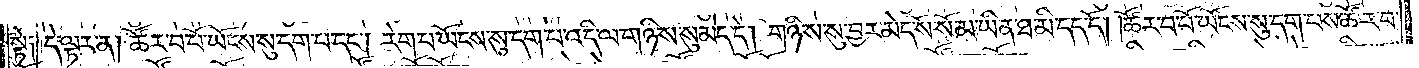སྟེ༑ དེ་ལྟར་ན། ཚོར་བ་པོ་ཡོངས་སུ་དག་པ་དང༌། རེག་པ་ཡོངས་སུ་དག་པ་འདི་ལ་གཉིས་སུ་མེད་དེ། གཉིས་སུ་བྱར་མེད་སོ་སོ་མ་ཡིན་ཐ་མི་དད་དོ། །ཚོར་བ་པོ་ཡོངས་སུ་དག་པས་ཚོར་བ་
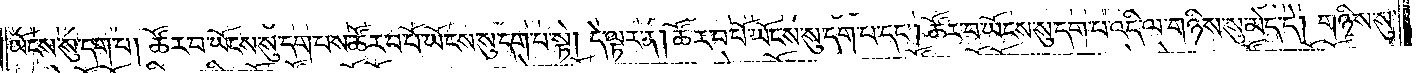ཡོངས་སུ་དག་པ། ཚོར་བ་ཡོངས་སུ་དག་པས་ཚོར་བ་པོ་ཡོངས་སུ་དག་པ་སྟེ། དེ་ལྟར་ན། ཚོར་བ་པོ་ཡོངས་སུ་དག་པ་དང༌། ཚོར་བ་ཡོངས་སུ་དག་པ་འདི་ལ་གཉིས་སུ་མེད་དེ། གཉིས་སུ་
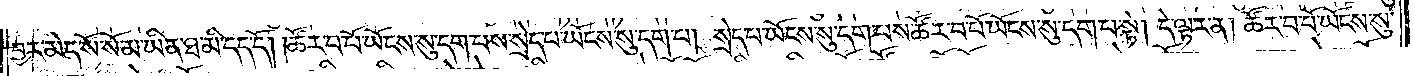བྱར་མེད་སོ་སོ་མ་ཡིན་ཐ་མི་དད་དོ། །ཚོར་བ་པོ་ཡོངས་སུ་དག་པས་སྲེད་པ་ཡོངས་སུ་དག་པ། སྲེད་པ་ཡོངས་སུ་དག་པས་ཚོར་བ་པོ་ཡོངས་སུ་དག་པ་སྟེ། དེ་ལྟར་ན། ཚོར་བ་པོ་ཡོངས་སུ་
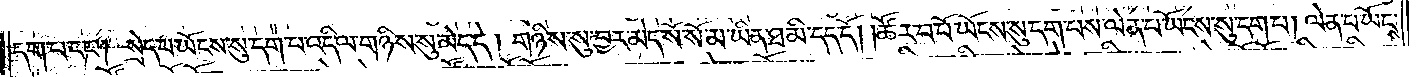དག་པ་དང༌། སྲེད་པ་ཡོངས་སུ་དག་པ་འདི་ལ་གཉིས་སུ་མེད་དེ། གཉིས་སུ་བྱར་མེད་སོ་སོ་མ་ཡིན་ཐ་མི་དད་དོ། །ཚོར་བ་པོ་ཡོངས་སུ་དག་པས་ལེན་པ་ཡོངས་སུ་དག་པ། ལེན་པ་ཡོངས་
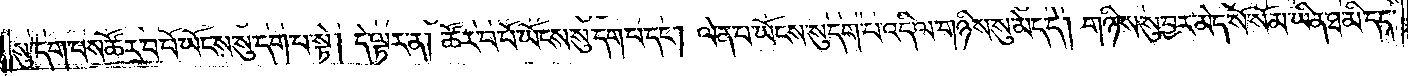སུ་དག་པས་ཚོར་བ་པོ་ཡོངས་སུ་དག་པ་སྟེ། དེ་ལྟར་ན། ཚོར་བ་པོ་ཡོངས་སུ་དག་པ་དང༌། ལེན་པ་ཡོངས་སུ་དག་པ་འདི་ལ་གཉིས་སུ་མེད་དེ། གཉིས་སུ་བྱར་མེད་སོ་སོ་མ་ཡིན་ཐ་མི་དད་
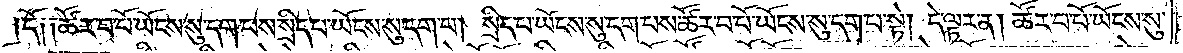དོ༑ ༑ཚོར་བ་པོ་ཡོངས་སུ་དག་པས་སྲིད་པ་ཡོངས་སུ་དག་པ། སྲིད་པ་ཡོངས་སུ་དག་པས་ཚོར་བ་པོ་ཡོངས་སུ་དག་པ་སྟེ། དེ་ལྟར་ན། ཚོར་བ་པོ་ཡོངས་སུ་
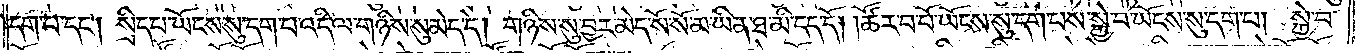དག་པ་དང༌། སྲིད་པ་ཡོངས་སུ་དག་པ་འདི་ལ་གཉིས་སུ་མེད་དེ། གཉིས་སུ་བྱར་མེད་སོ་སོ་མ་ཡིན་ཐ་མི་དད་དོ། །ཚོར་བ་པོ་ཡོངས་སུ་དག་པས་སྐྱེ་བ་ཡོངས་སུ་དག་པ། སྐྱེ་བ་
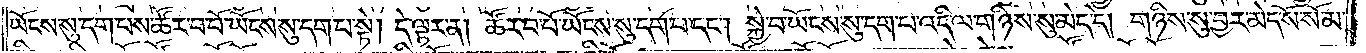ཡོངས་སུ་དག་པས་ཚོར་བ་པོ་ཡོངས་སུ་དག་པ་སྟེ། དེ་ལྟར་ན། ཚོར་བ་པོ་ཡོངས་སུ་དག་པ་དང༌། སྐྱེ་བ་ཡོངས་སུ་དག་པ་འདི་ལ་གཉིས་སུ་མེད་དེ། གཉིས་སུ་བྱར་མེད་སོ་སོ་མ་
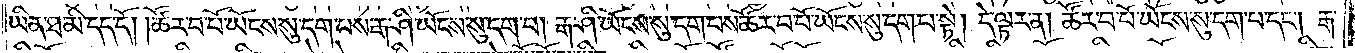ཡིན་ཐ་མི་དད་དོ། །ཚོར་བ་པོ་ཡོངས་སུ་དག་པས་རྒ་ཤི་ཡོངས་སུ་དག་པ། རྒ་ཤི་ཡོངས་སུ་དག་པས་ཚོར་བ་པོ་ཡོངས་སུ་དག་པ་སྟེ། དེ་ལྟར་ན། ཚོར་བ་པོ་ཡོངས་སུ་དག་པ་དང༌། རྒ་
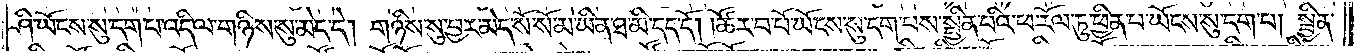ཤི་ཡོངས་སུ་དག་པ་འདི་ལ་གཉིས་སུ་མེད་དེ། གཉིས་སུ་བྱར་མེད་སོ་སོ་མ་ཡིན་ཐ་མི་དད་དོ། །ཚོར་བ་པོ་ཡོངས་སུ་དག་པས་སྦྱིན་པའི་ཕ་རོལ་ཏུ་ཕྱིན་པ་ཡོངས་སུ་དག་པ། སྦྱིན་
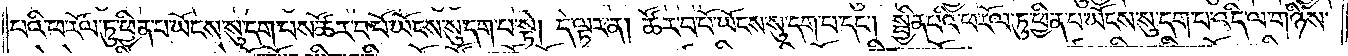པའི་ཕ་རོལ་ཏུ་ཕྱིན་པ་ཡོངས་སུ་དག་པས་ཚོར་བ་པོ་ཡོངས་སུ་དག་པ་སྟེ། དེ་ལྟར་ན། ཚོར་བ་པོ་ཡོངས་སུ་དག་པ་དང༌། སྦྱིན་པའི་ཕ་རོལ་ཏུ་ཕྱིན་པ་ཡོངས་སུ་དག་པ་འདི་ལ་གཉིས་
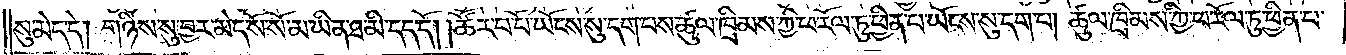སུ་མེད་དེ། གཉིས་སུ་བྱར་མེད་སོ་སོ་མ་ཡིན་ཐ་མི་དད་དོ། །ཚོར་བ་པོ་ཡོངས་སུ་དག་པས་ཚུལ་ཁྲིམས་ཀྱི་ཕ་རོལ་ཏུ་ཕྱིན་པ་ཡོངས་སུ་དག་པ། ཚུལ་ཁྲིམས་ཀྱི་ཕ་རོལ་ཏུ་ཕྱིན་པ་
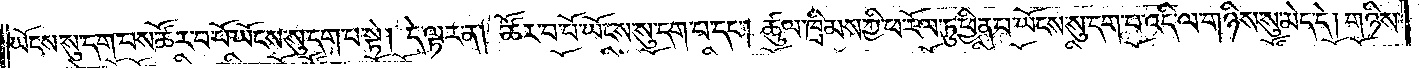ཡོངས་སུ་དག་པས་ཚོར་བ་པོ་ཡོངས་སུ་དག་པ་སྟེ། དེ་ལྟར་ན། ཚོར་བ་པོ་ཡོངས་སུ་དག་པ་དང༌། ཚུལ་ཁྲིམས་ཀྱི་ཕ་རོལ་ཏུ་ཕྱིན་པ་ཡོངས་སུ་དག་པ་འདི་ལ་གཉིས་སུ་མེད་དེ། གཉིས་
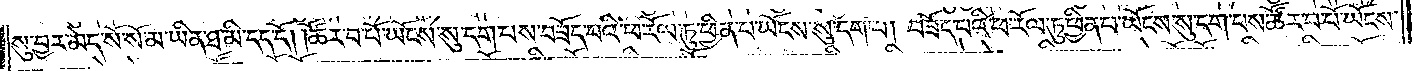སུ་བྱར་མེད་སོ་སོ་མ་ཡིན་ཐ་མི་དད་དོ། །ཚོར་བ་པོ་ཡོངས་སུ་དག་པས་བཟོད་པའི་ཕ་རོལ་ཏུ་ཕྱིན་པ་ཡོངས་སུ་དག་པ། བཟོད་པའི་ཕ་རོལ་ཏུ་ཕྱིན་པ་ཡོངས་སུ་དག་པས་ཚོར་བ་པོ་ཡོངས་
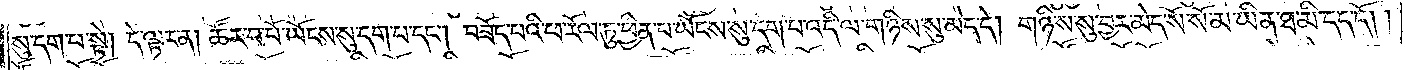སུ་དག་པ་སྟེ། དེ་ལྟར་ན། ཚོར་བ་པོ་ཡོངས་སུ་དག་པ་དང༌། བཟོད་པའི་ཕ་རོལ་ཏུ་ཕྱིན་པ་ཡོངས་སུ་དག་པ་འདི་ལ་གཉིས་སུ་མེད་དེ། གཉིས་སུ་བྱར་མེད་སོ་སོ་མ་ཡིན་ཐ་མི་དད་དོ། །
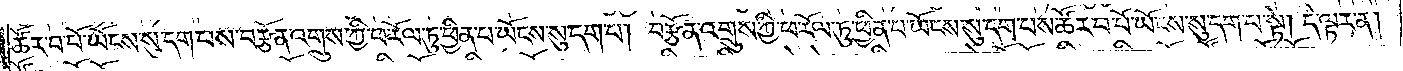ཚོར་བ་པོ་ཡོངས་སུ་དག་པས་བརྩོན་འགྲུས་ཀྱི་ཕ་རོལ་ཏུ་ཕྱིན་པ་ཡོངས་སུ་དག་པ། བརྩོན་འགྲུས་ཀྱི་ཕ་རོལ་ཏུ་ཕྱིན་པ་ཡོངས་སུ་དག་པས་ཚོར་བ་པོ་ཡོངས་སུ་དག་པ་སྟེ། དེ་ལྟར་ན།
